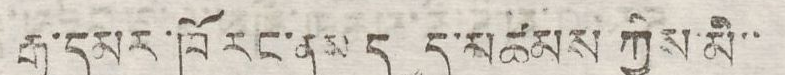རྒྱ་དམར་ཁོ་རང་ནས་དཔྱད་མཚམས ཀྱིས་མི་་
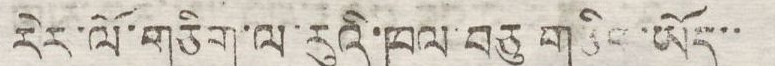རེར་ལོ་གཅིག་ལ་རུའི་ཁལ་བཅུ་གཅིག་ཡོད་་
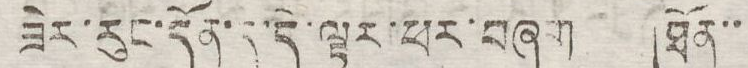ཟེར་རུང་དོན་དུ་དེ་ལྟར་ཕར་བཞག །ཐོན་་
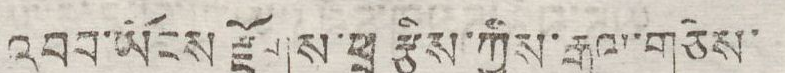འབབ་ཡོངས་རྫོགས་ཕྲ རྩིས་ཀྱིས་རྒྱལ་གཅེས་
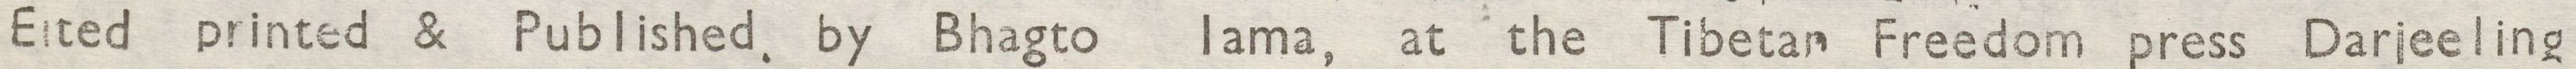Edited printed & published by Bhagto lama, at the Tibetan Freedom press Darjeeling
